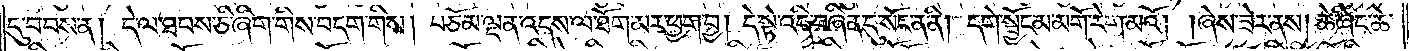དུ་བབས་ན། དེ་ལ་ཐབས་ཅི་ཞིག་གིས་བདག་གིས། བཅོམ་ལྡན་འདས་ལ་ཐོག་མར་ཕྱག་བྱ། དེ་སྟེ་འདི་བཞིན་དུ་སོང་ན་ནི། དགེ་སྦྱོང་མ་མགོ་རེག་མའོ། །ཞེས་ཟེར་ནས། ཆེ་ཞིང་ཆེ་
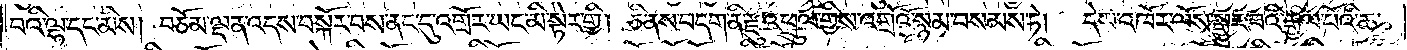བའི་ལྷ་དང་མིས། བཅོམ་ལྡན་འདས་བསྐོར་བས་ནང་དུ་འགྲོར་ཡང་མི་སྟེར་གྱི། ཅི་ནས་བདག་ནི་རྫུ་འཕྲུལ་གྱིས་འགྲོའོ་སྙམ་བསམས་ཏེ། དེས་འཁོར་ལོས་སྒྱུར་བའི་རྒྱལ་པོའི་ཆ་
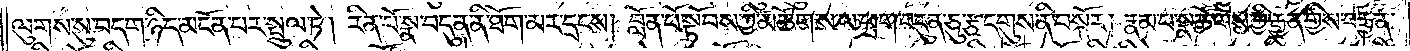ལུགས་སུ་བདག་ཉིད་མངོན་པར་སྤྲུལ་ཏེ། རིན་པོ་ཆེ་སྣ་བདུན་ནི་ཐོག་མར་དྲངས། བློན་པོ་སྟོབས་ཀྱི་མཆོག་ས་ཡ་ཕྲག་བདུན་ཅུ་རྩ་དགུས་ནི་བསྐོར། རྣམ་པ་སྣ་ཚོགས་ཀྱི་རྒྱན་གྱིས་བརྒྱན་
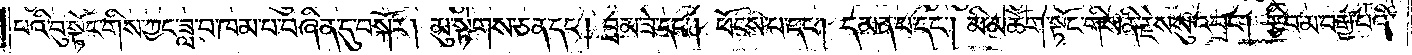པའི་བུ་སྟོང་གིས་ཀྱང་ཟླ་བ་ཁམ་པ་བཞིན་དུ་བསྐོར། མུ་སྟེགས་ཅན་དང༌། བྲམ་ཟེ་དང༌། ཕོངས་པ་དང༌། དམན་པ་དང༌། མི་མཆོག་སྟོང་གིས་ནི་རྗེས་སུ་འབྲང༌། རྩིབ་མ་བརྒྱ་པའི་
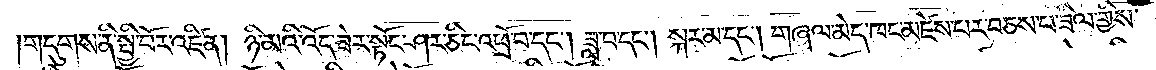གདུགས་ནི་སྤྱི་བོར་འཛིན། ཉི་མའི་འོད་ཟེར་སྟོང་ཤར་ཅིང་འཕྲོ་བ་དང༌། ཟླ་བ་དང༌། སྐར་མ་དང༌། གཞལ་མེད་ཁང་མཛེས་པར་བཅས་པ་ཟིལ་གྱིས་
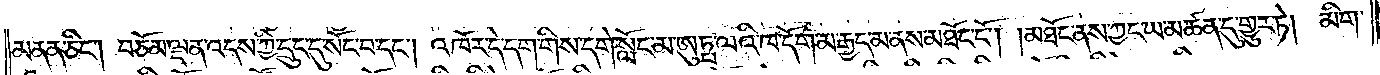མནན་ཅིང༌། བཅོམ་ལྡན་འདས་ཀྱི་དྲུང་དུ་སོང་བ་དང༌། འཁོར་དེ་དག་གིས་དགེ་སློང་མ་ཨུཏྤ་ལའི་ཁ་དོག་མ་རྒྱད་མ་ནས་མཐོང་ངོ༌། །མཐོང་ནས་ཀྱང་ཡ་མཚན་དུ་གྱུར་ཏེ། མིག་
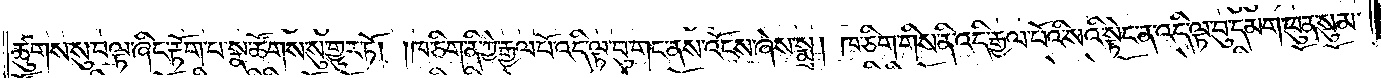ཚུགས་སུ་བལྟ་ཞིང་རྟོག་པ་སྣ་ཚོགས་སུ་གྱུར་ཏོ། །ཁ་ཅིག་ནི་ཀྱེ་རྒྱལ་པོ་འདི་ལྟ་བུ་གང་ནས་འོངས་ཞེས་སྨྲ། ཁ་ཅིག་གིས་ནི་འདི་རྒྱལ་པོའི་སའི་སྟེང་ན་འདི་ལྟ་བུ་དམག་ཕུན་སུམ་
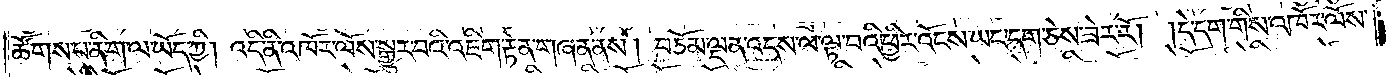ཚོགས་པ་ནི་ག་ལ་ཡོད་ཀྱི། འདི་ནི་འཁོར་ལོས་སྒྱུར་བའི་འཇིག་རྟེན་གཞན་ནས། བཅོམ་ལྡན་འདས་ལ་ལྟ་བའི་ཕྱིར་འོངས་ཡང་དག་ཅེས་ཟེར་རོ། །དེ་དག་གིས་འཁོར་ལོས་
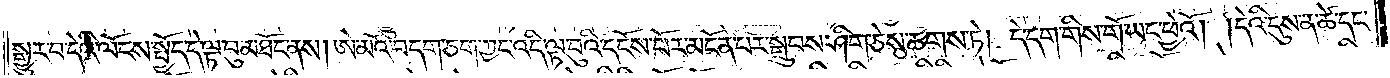སྒྱུར་བ་དེའི་ལོངས་སྤྱོད་དེ་ལྟ་བུ་མཐོང་ནས། ཨེ་མའོ་བདག་ཅག་ཀྱང་འདི་ལྟ་བུའི་དངོས་པོར་མངོན་པར་སྒྲུབས་ཤིག་ཅེས་ཆགས་ཏེ། དེ་དག་གིས་གོ་ཡང་ཕྱེའོ། །དེའི་དུས་ན་ཚེ་དང་
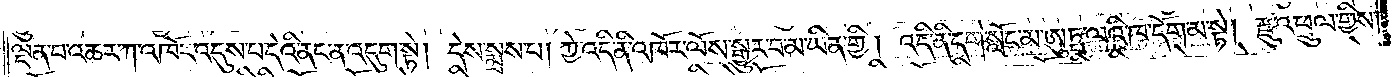ལྡན་པ་འཆར་ཀ་འཁོར་འདུས་པ་དེའི་ནང་ན་འདུག་སྟེ། དེས་སྨྲས་པ། ཀྱེ་འདི་ནི་འཁོར་ལོས་སྒྱུར་བ་མ་ཡིན་གྱི། འདི་ནི་དགེ་སློང་མ་ཨུཏྤ་ལའི་ཁ་དོག་མ་སྟེ། རྫུ་འཕྲུལ་གྱིས་
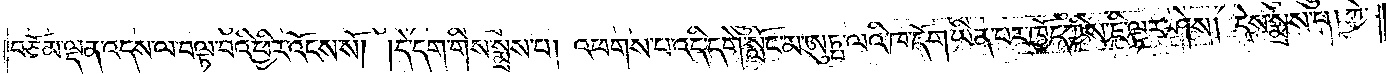བཅོམ་ལྡན་འདས་ལ་བལྟ་བའི་ཕྱིར་འོངས་སོ། །དེ་དག་གིས་སྨྲས་པ། འཕགས་པ་འདི་དགེ་སློང་མ་ཨུཏྤ་ལའི་ཁ་དོག་ཡིན་པར་ཁྱོད་ཀྱིས་ཇི་ལྟར་ཤེས། །དེས་སྨྲས་པ། ཀྱེ་
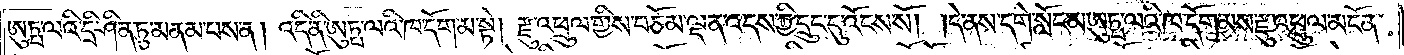ཨུཏྤ་ལའི་དྲི་ཤིན་ཏུ་མནམ་པས་ན། འདི་ནི་ཨུཏྤ་ལའི་ཁ་དོག་མ་སྟེ། རྫུ་འཕྲུལ་གྱིས་བཅོམ་ལྡན་འདས་ཀྱི་དྲུང་དུ་འོངས་སོ། །དེ་ནས་དགེ་སློང་མ་ཨུཏྤ་ལའི་ཁ་དོག་མས་རྫུ་འཕྲུལ་མངོན་
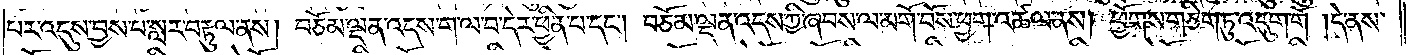པར་འདུས་བྱས་པ་སླར་བརྟུལ་ནས། བཅོམ་ལྡན་འདས་ག་ལ་བ་དེར་ཕྱིན་པ་དང༌། བཅོམ་ལྡན་འདས་ཀྱི་ཞབས་ལ་མགོ་བོས་ཕྱག་འཚལ་ནས། ཕྱོགས་གཅིག་ཏུ་འདུག་གོ །དེ་ནས་
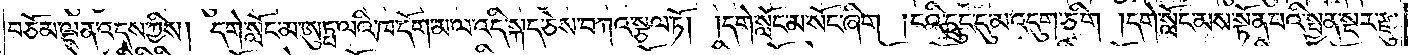བཅོམ་ལྡན་འདས་ཀྱིས། དགེ་སློང་མ་ཨུཏྤ་ལའི་ཁ་དོག་མ་ལ་འདི་སྐད་ཅེས་བཀའ་སྩལ་ཏོ། །དགེ་སློང་མ་སོང་ཞིག །ངའི་དྲུང་དུ་མ་འདུག་ཅིག །དགེ་སློང་མས་སྟོན་པའི་སྤྱན་སྔར་རྫུ་
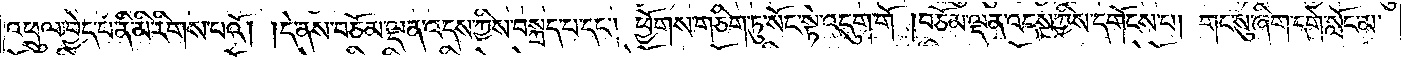འཕྲུལ་བྱེད་པ་ནི་མི་རིགས་པའོ། །དེ་ནས་བཅོམ་ལྡན་འདས་ཀྱིས་བསྐྲད་པ་དང༌། ཕྱོགས་གཅིག་ཏུ་སོང་སྟེ་འདུག་གོ །བཅོམ་ལྡན་འདས་ཀྱིས་དགོངས་པ། གང་སུ་ཞིག་དགེ་སློང་མ་
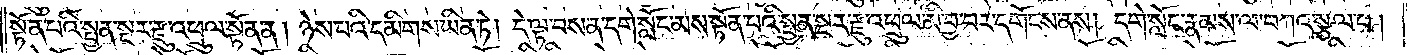སྟོན་པའི་སྤྱན་སྔར་རྫུ་འཕྲུལ་སྟོན་ན། ཉེས་པའི་དམིགས་ཡིན་ཏེ། དེ་ལྟ་བས་ན་དགེ་སློང་མས་སྟོན་པའི་སྤྱན་སྔར་རྫུ་འཕྲུལ་མི་བྱ་བར་དགོངས་ནས། དགེ་སློང་རྣམས་ལ་བཀའ་སྩལ་པ།
